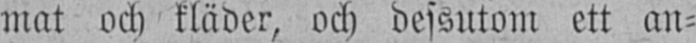mat och kläder, och dessutom ett an-
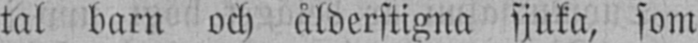tal barn och ålderstigna sjuka, som
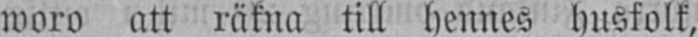woro att räkna till hennes husfolk,
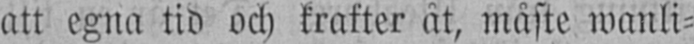att egna tid och krafter åt, måste wanli-
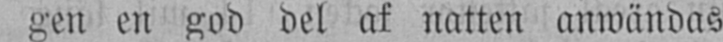gen en god del af natten anwändas
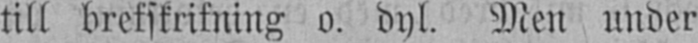till brefskrifning o. dyl. Men under
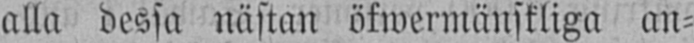alla dessa nästan öfwermänskliga an-
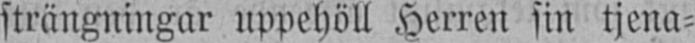strängningar uppehöll Herren sin tjena-
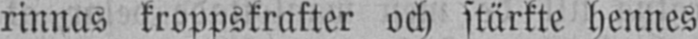rinnas kroppskrafter och stärkte hennes
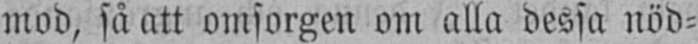mod, så att omsorgen om alla dessa nöd-
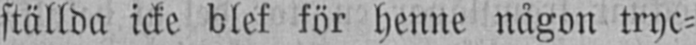ställda icke blef för henne någon tryc-
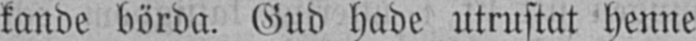kande börda. Gud hade utrustat henne
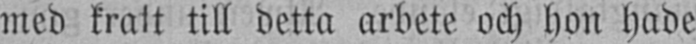med kraft till detta arbete och hon hade
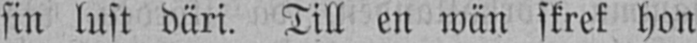sin lust däri. Till en wän skref hon
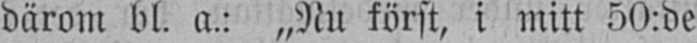därom bl. a.: „Nu först, i mitt 50:de
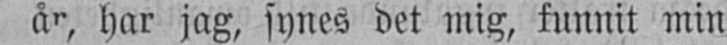år, har jag, synes det mig, funnit min
